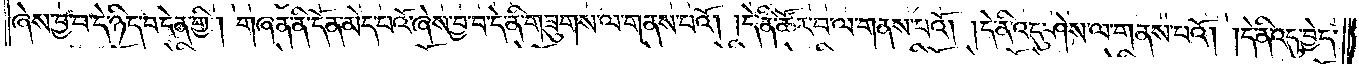ཞེས་བྱ་བ་དེ་ཉིད་བདེན་གྱི། གཞན་ནི་དོན་མེད་པའོ་ཞེས་བྱ་བ་དེ་ནི་གཟུགས་ལ་གནས་པའོ། །དེ་ནི་ཚོར་བ་ལ་གནས་པའོ། །དེ་ནི་འདུ་ཤེས་ལ་གནས་པའོ། །དེ་ནི་འདུ་བྱེད་
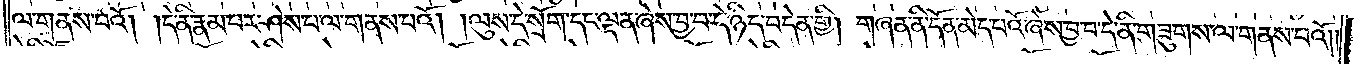ལ་གནས་པའོ། །དེ་ནི་རྣམ་པར་ཤེས་པ་ལ་གནས་པའོ། །ལུས་དེ་སྲོག་དང་ལྡན་ཞེས་བྱ་བ་དེ་ཉིད་བདེན་གྱི། གཞན་ནི་དོན་མེད་པའོ་ཞེས་བྱ་བ་དེ་ནི་གཟུགས་ལ་གནས་པའོ། །
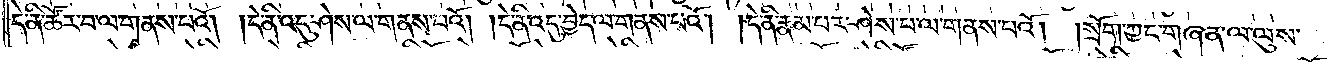དེ་ནི་ཚོར་བ་ལ་གནས་པའོ། །དེ་ནི་འདུ་ཤེས་ལ་གནས་པའོ། །དེ་ནི་འདུ་བྱེད་ལ་གནས་པའོ། །དེ་ནི་རྣམ་པར་ཤེས་པ་ལ་གནས་པའོ། །སྲོག་ཀྱང་གཞན་ལ་ལུས་
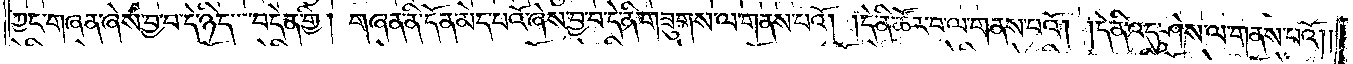ཀྱང་གཞན་ཞེས་བྱ་བ་དེ་ཉིད་བདེན་གྱི། གཞན་ནི་དོན་མེད་པའོ་ཞེས་བྱ་བ་དེ་ནི་གཟུགས་ལ་གནས་པའོ། །དེ་ནི་ཚོར་བ་ལ་གནས་པའོ། །དེ་ནི་འདུ་ཤེས་ལ་གནས་པའོ། །
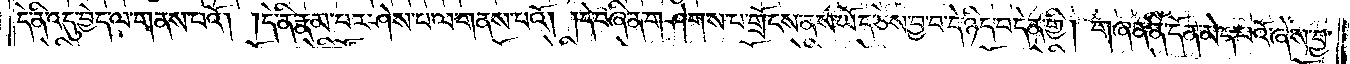དེ་ནི་འདུ་བྱེད་ལ་གནས་པའོ། །དེ་ནི་རྣམ་པར་ཤེས་པ་ལ་གནས་པའོ། །དེ་བཞིན་གཤེགས་པ་གྲོངས་ནས་ཡོད་ཅེས་བྱ་བ་དེ་ཉིད་བདེན་གྱི། གཞན་ནི་དོན་མེད་པའོ་ཞེས་བྱ་
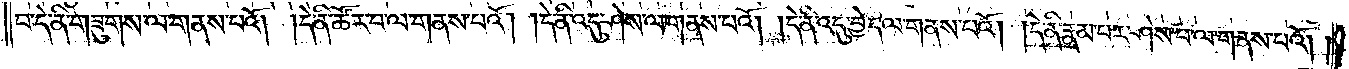བ་དེ་ནི་གཟུགས་ལ་གནས་པའོ། །དེ་ནི་ཚོར་བ་ལ་གནས་པའོ། །དེ་ནི་འདུ་ཤེས་ལ་གནས་པའོ། །དེ་ནི་འདུ་བྱེད་ལ་གནས་པའོ། །དེ་ནི་རྣམ་པར་ཤེས་པ་ལ་གནས་པའོ། །
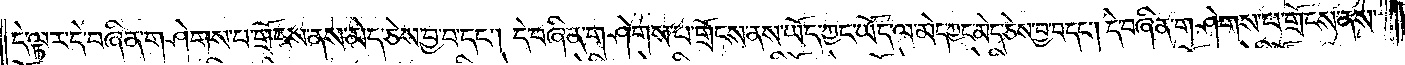དེ་ལྟར་དེ་བཞིན་གཤེགས་པ་གྲོངས་ནས་མེད་ཅེས་བྱ་བ་དང༌། དེ་བཞིན་གཤེགས་པ་གྲོངས་ནས་ཡོད་ཀྱང་ཡོད་ལ་མེད་ཀྱང་མེད་ཅེས་བྱ་བ་དང༌། དེ་བཞིན་གཤེགས་པ་གྲོངས་ནས་
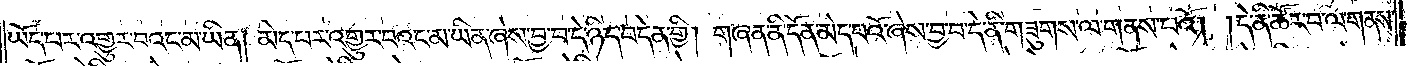ཡོད་པར་འགྱུར་བའང་མ་ཡིན། མེད་པར་འགྱུར་བའང་མ་ཡིན་ཞེས་བྱ་བ་དེ་ཉིད་བདེན་གྱི། གཞན་ནི་དོན་མེད་པའོ་ཞེས་བྱ་བ་དེ་ནི་གཟུགས་ལ་གནས་པའོ། །དེ་ནི་ཚོར་བ་ལ་གནས་
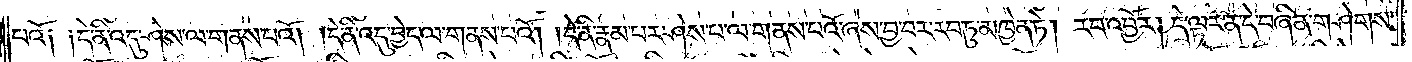པའོ༑ ༑དེ་ནི་འདུ་ཤེས་ལ་གནས་པའོ། །དེ་ནི་འདུ་བྱེད་ལ་གནས་པའོ། །དེ་ནི་རྣམ་པར་ཤེས་པ་ལ་གནས་པའོ་ཞེས་བྱ་བར་རབ་ཏུ་མཁྱེན་ཏེ། རབ་འབྱོར། དེ་ལྟར་ན་དེ་བཞིན་གཤེགས་
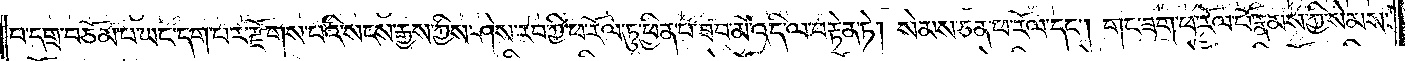པ་དགྲ་བཅོམ་པ་ཡང་དག་པར་རྫོགས་པའི་སངས་རྒྱས་ཀྱིས་ཤེས་རབ་ཀྱི་ཕ་རོལ་ཏུ་ཕྱིན་པ་ཟབ་མོ་འདི་ལ་བརྟེན་ཏེ། སེམས་ཅན་ཕ་རོལ་དང༌། གང་ཟག་ཕ་རོལ་པོ་རྣམས་ཀྱི་སེམས་
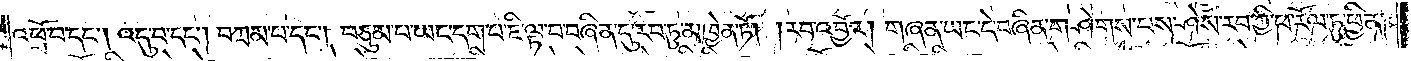འཕྲོ་བ་དང༌། འདུ་བ་དང༌། བཀྲམ་པ་དང༌། བཅུམ་པ་ཡང་དག་པ་ཇི་ལྟ་བ་བཞིན་དུ་རབ་ཏུ་མཁྱེན་ཏོ། །རབ་འབྱོར། གཞན་ཡང་དེ་བཞིན་གཤེགས་པས་ཤེས་རབ་ཀྱི་ཕ་རོལ་ཏུ་ཕྱིན་
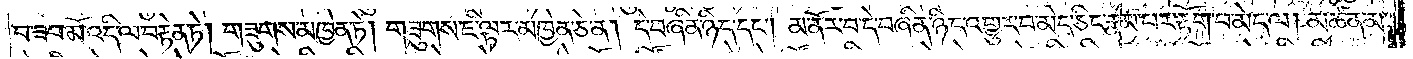པ་ཟབ་མོ་འདི་ལ་བརྟེན་ཏེ། གཟུགས་མཁྱེན་ཏེ། གཟུགས་ཇི་ལྟར་མཁྱེན་ཅེ་ན། དེ་བཞིན་ཉིད་དང༌། མ་ནོར་བ་དེ་བཞིན་ཉིད་འགྱུར་བ་མེད་ཅིང་རྣམ་པར་རྟོག་པ་མེད་ལ། མཚན་མ་
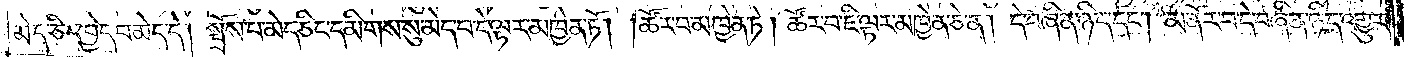མེད་ཅིང་བྱེད་པ་མེད་དེ། སྤྲོས་པ་མེད་ཅིང་དེ་གཉིས་སུ་མེད་པ་དེ་ལྟར་མཁྱེན་ཏོ། །ཚོར་བ་མཁྱེན་ཏེ། ཚོར་བ་ཇི་ལྟར་མཁྱེན་ཅེ་ན། དེ་བཞིན་ཉིད་དང༌། མ་ནོར་བ་དེ་བཞིན་ཉིད་འགྱུར་
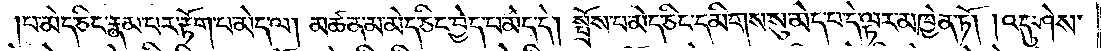བ་མེད་ཅིང་རྣམ་པར་རྟོག་པ་མེད་ལ། མཚན་མ་མེད་ཅིང་བྱེད་པ་མེད་དེ། སྤྲོས་པ་མེད་ཅིང་དམིགས་སུ་མེད་པ་དེ་ལྟར་མཁྱེན་ཏོ། །འདུ་ཤེས་
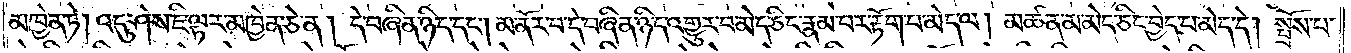མཁྱེན་ཏེ། འདུ་ཤེས་ཇི་ལྟར་མཁྱེན་ཅེ་ན། དེ་བཞིན་ཉིད་དང༌། མ་ནོར་བ་དེ་བཞིན་ཉིད་འགྱུར་བ་མེད་ཅིང་རྣམ་པར་རྟོག་པ་མེད་ལ། མཚན་མ་མེད་ཅིང་བྱེད་པ་མེད་དེ། སྤྲོས་པ་
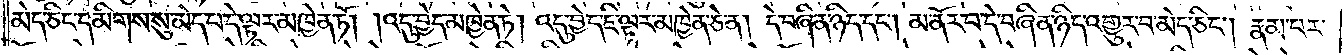མེད་ཅིང་དམིགས་སུ་མེད་པ་དེ་ལྟར་མཁྱེན་ཏོ། །འདུ་བྱེད་མཁྱེན་ཏེ། འདུ་བྱེད་ཇི་ལྟར་མཁྱེན་ཅེ་ན། དེ་བཞིན་ཉིད་དང༌། མ་ནོར་བ་དེ་བཞིན་ཉིད་འགྱུར་བ་མེད་ཅིང༌། རྣམ་པར་
